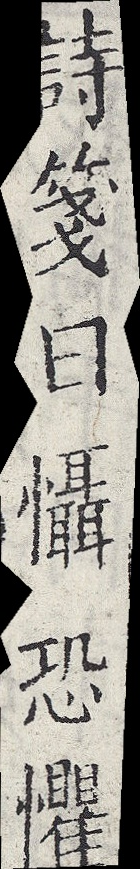詩箋曰懾恐懼
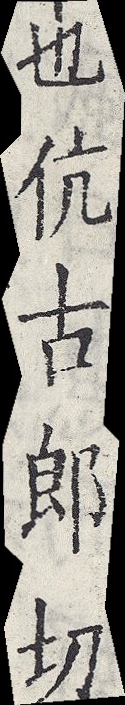也伉古郎切
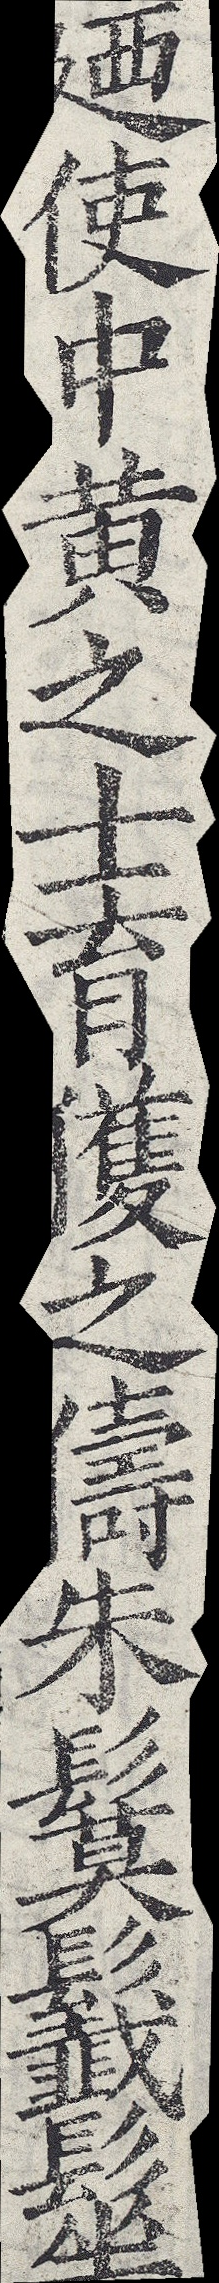廼使中黃之士育獲之儔朱鬕𩰁髽
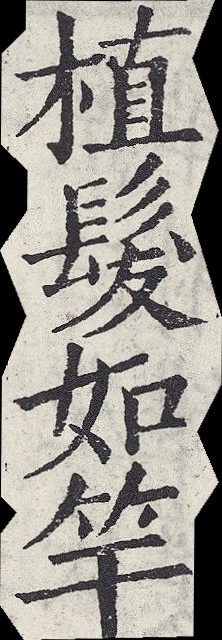植髮如竿
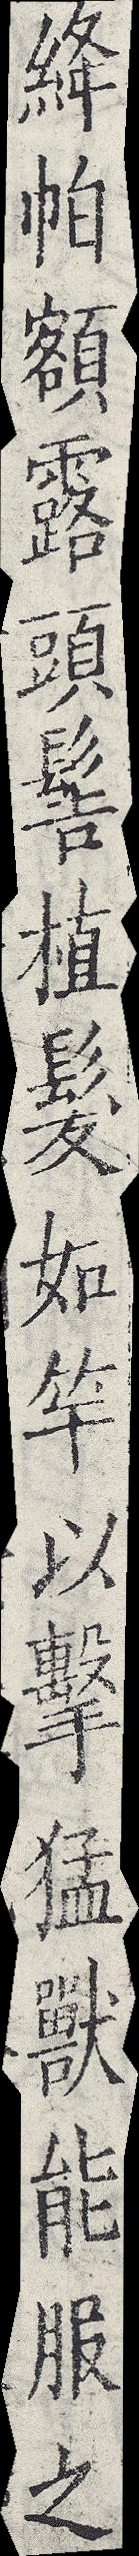絳帕額露頭髻植髮如竿以擊猛獸能服之
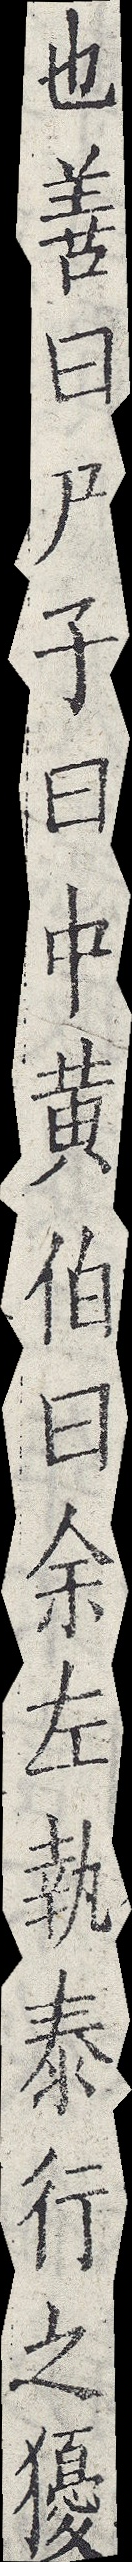也善曰尸子曰中黃伯曰余左執泰行之獶
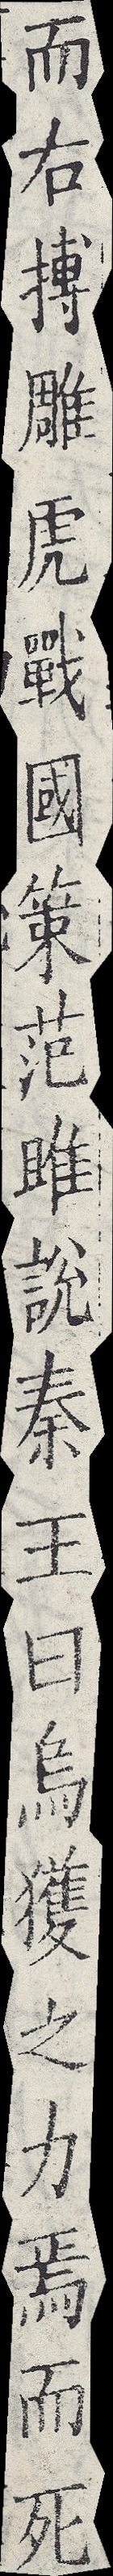而右搏雕虎戰國策范雎說秦王曰烏獲之力焉而死
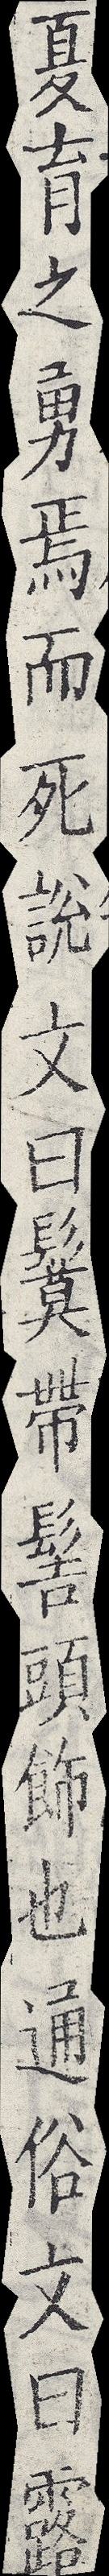夏育之勇焉而死說文曰鬕帶髻頭飾也通俗文曰露
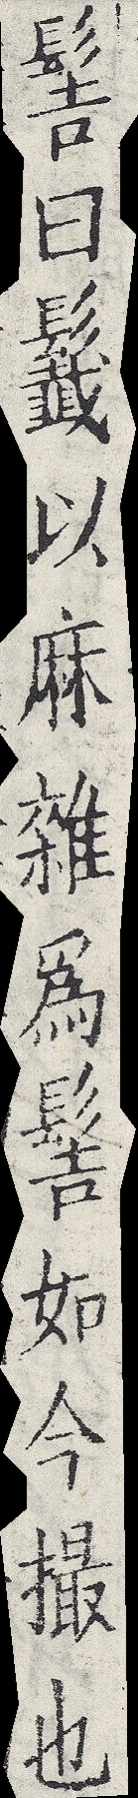髻曰𩰁以麻雜為髻如今撮也
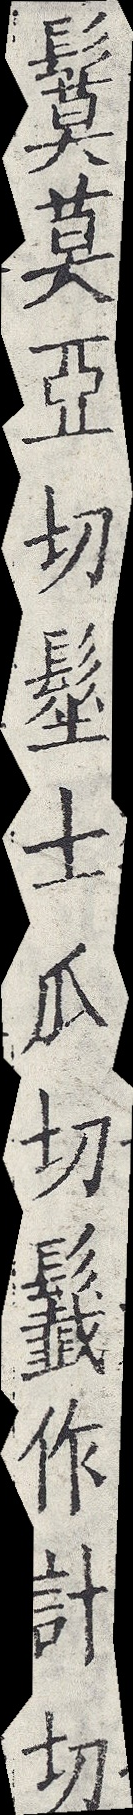鬕莫亞切髽士瓜切𩰁作計切
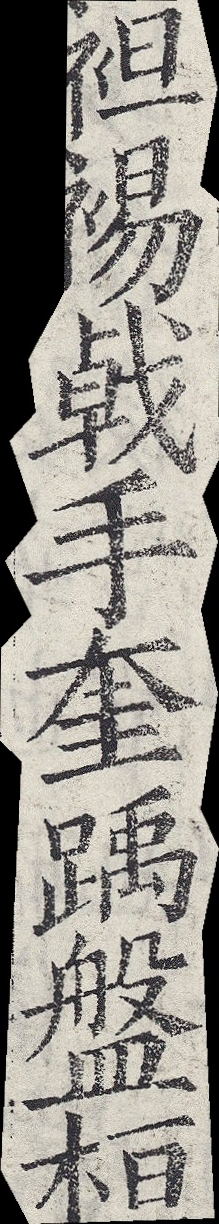袒裼戟手奎踽盤桓
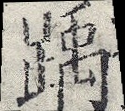踽
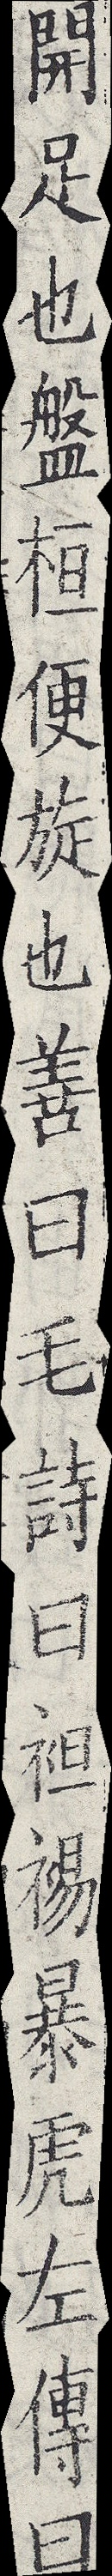開足也盤桓便旋也善曰毛詩曰袒裼暴虎左傳曰
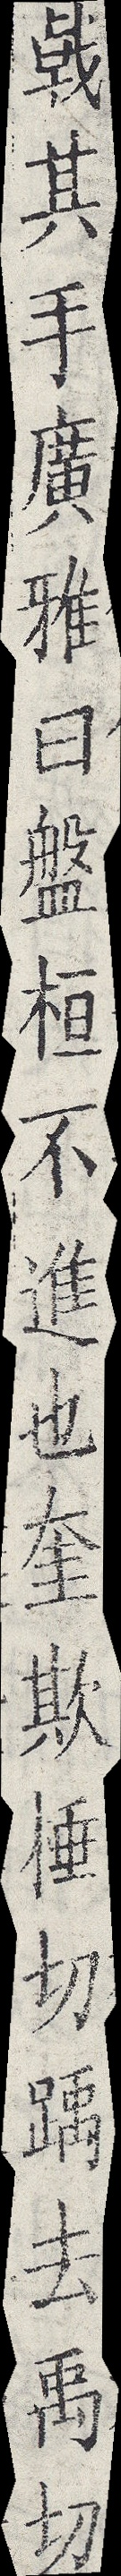戟其手廣雅曰盤桓不進也奎欺棰切踽去禹切
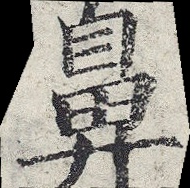鼻
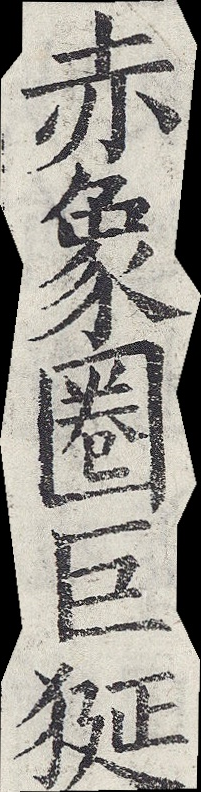赤象圈巨狿
